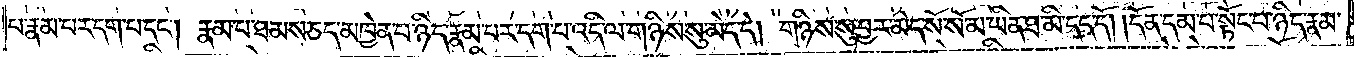པ་རྣམ་པར་དག་པ་དང༌། རྣམ་པ་ཐམས་ཅད་མཁྱེན་པ་ཉིད་རྣམ་པར་དག་པ་འདི་ལ་གཉིས་སུ་མེད་དེ། གཉིས་སུ་བྱར་མེད་སོ་སོ་མ་ཡིན་ཐ་མི་དད་དོ། །དོན་དམ་པ་སྟོང་པ་ཉིད་རྣམ་
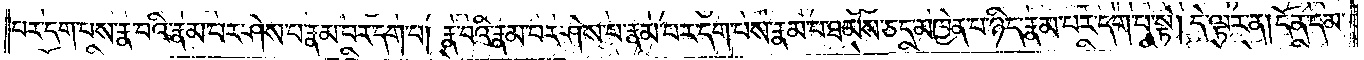པར་དག་པས་རྣ་བའི་རྣམ་པར་ཤེས་པ་རྣམ་པར་དག་པ། རྣ་བའི་རྣམ་པར་ཤེས་པ་རྣམ་པར་དག་པས་རྣམ་པ་ཐམས་ཅད་མཁྱེན་པ་ཉིད་རྣམ་པར་དག་པ་སྟེ། དེ་ལྟར་ན། དོན་དམ་
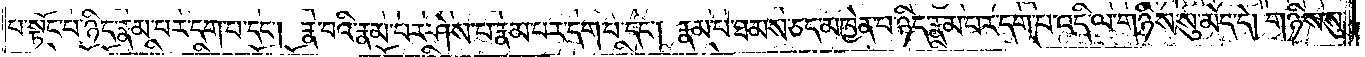པ་སྟོང་པ་ཉིད་རྣམ་པར་དག་པ་དང༌། རྣ་བའི་རྣམ་པར་ཤེས་པ་རྣམ་པར་དག་པ་དང༌། རྣམ་པ་ཐམས་ཅད་མཁྱེན་པ་ཉིད་རྣམ་པར་དག་པ་འདི་ལ་གཉིས་སུ་མེད་དེ། གཉིས་སུ་
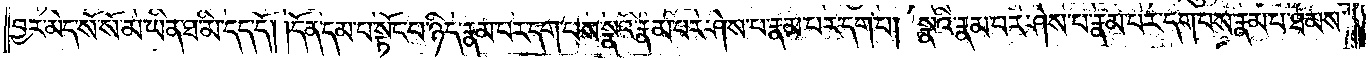བྱར་མེད་སོ་སོ་མ་ཡིན་ཐ་མི་དད་དོ། །དོན་དམ་པ་སྟོང་པ་ཉིད་རྣམ་པར་དག་པས་སྣའི་རྣམ་པར་ཤེས་པ་རྣམ་པར་དག་པ། སྣའི་རྣམ་པར་ཤེས་པ་རྣམ་པར་དག་པས་རྣམ་པ་ཐམས་
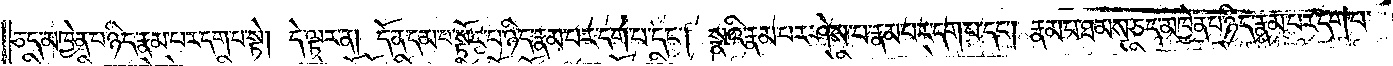ཅད་མཁྱེན་པ་ཉིད་རྣམ་པར་དག་པ་སྟེ། དེ་ལྟར་ན། དོན་དམ་པ་སྟོང་པ་ཉིད་རྣམ་པར་དག་པ་དང༌། སྣའི་རྣམ་པར་ཤེས་པ་རྣམ་པར་དག་པ་དང༌། རྣམ་པ་ཐམས་ཅད་མཁྱེན་པ་ཉིད་རྣམ་པར་དག་པ་
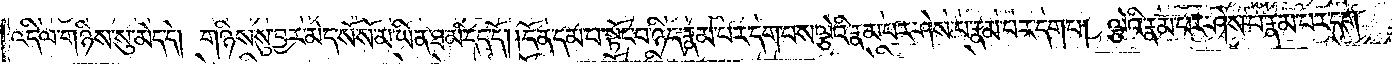འདི་ལ་གཉིས་སུ་མེད་དེ། གཉིས་སུ་བྱར་མེད་སོ་སོ་མ་ཡིན་ཐ་མི་དད་དོ། །དོན་དམ་པ་སྟོང་པ་ཉིད་རྣམ་པར་དག་པས་ལྕེའི་རྣམ་པར་ཤེས་པ་རྣམ་པར་དག་པ། ལྕེའི་རྣམ་པར་ཤེས་པ་རྣམ་པར་དག་
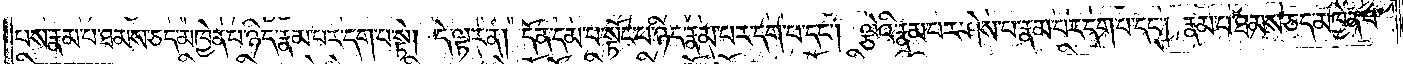པས་རྣམ་པ་ཐམས་ཅད་མཁྱེན་པ་ཉིད་རྣམ་པར་དག་པ་སྟེ། དེ་ལྟར་ན། དོན་དམ་པ་སྟོང་པ་ཉིད་རྣམ་པར་དག་པ་དང༌། ལྕེའི་རྣམ་པར་ཤེས་པ་རྣམ་པར་དག་པ་དང༌། རྣམ་པ་ཐམས་ཅད་མཁྱེན་པ་
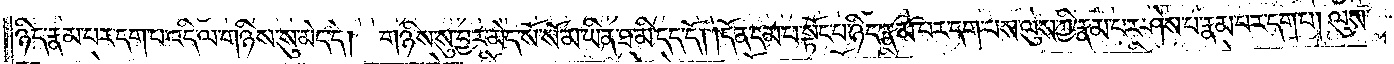ཉིད་རྣམ་པར་དག་པ་འདི་ལ་གཉིས་སུ་མེད་དེ། གཉིས་སུ་བྱར་མེད་སོ་སོ་མ་ཡིན་ཐ་མི་དད་དོ། །དོན་དམ་པ་སྟོང་པ་ཉིད་རྣམ་པར་དག་པས་ལུས་ཀྱི་རྣམ་པར་ཤེས་པ་རྣམ་པར་དག་པ། ལུས་ཀྱི་
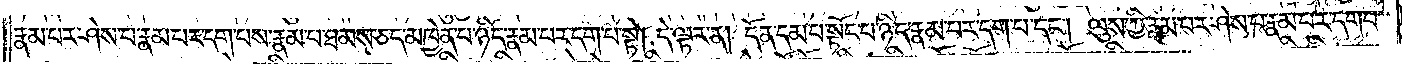རྣམ་པར་ཤེས་པ་རྣམ་པར་དག་པས་རྣམ་པ་ཐམས་ཅད་མཁྱེན་པ་ཉིད་རྣམ་པར་དག་པ་སྟེ། དེ་ལྟར་ན། དོན་དམ་པ་སྟོང་པ་ཉིད་རྣམ་པར་དག་པ་དང༌། ལུས་ཀྱི་རྣམ་པར་ཤེས་པ་རྣམ་པར་དག་པ་
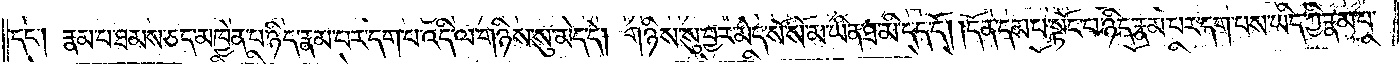དང༌། རྣམ་པ་ཐམས་ཅད་མཁྱེན་པ་ཉིད་རྣམ་པར་དག་པ་འདི་ལ་གཉིས་སུ་མེད་དེ། གཉིས་སུ་བྱར་མེད་སོ་སོ་མ་ཡིན་ཐ་མི་དད་དོ། །དོན་དམ་པ་སྟོང་པ་ཉིད་རྣམ་པར་དག་པས་ཡིད་ཀྱི་རྣམ་པར་
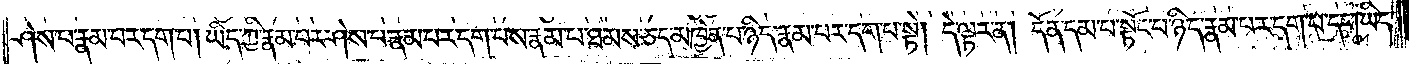ཤེས་པ་རྣམ་པར་དག་པ། ཡིད་ཀྱི་རྣམ་པར་ཤེས་པ་རྣམ་པར་དག་པས་རྣམ་པ་ཐམས་ཅད་མཁྱེན་པ་ཉིད་རྣམ་པར་དག་པ་སྟེ། དེ་ལྟར་ན། དོན་དམ་པ་སྟོང་པ་ཉིད་རྣམ་པར་དག་པ་དང༌། ཡིད་
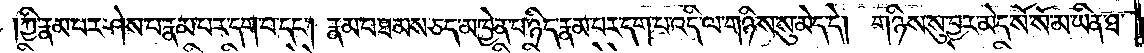ཀྱི་རྣམ་པར་ཤེས་པ་རྣམ་པར་དག་པ་དང༌། རྣམ་པ་ཐམས་ཅད་མཁྱེན་པ་ཉིད་རྣམ་པར་དག་པ་འདི་ལ་གཉིས་སུ་མེད་དེ། གཉིས་སུ་བྱར་མེད་སོ་སོ་མ་ཡིན་ཐ་
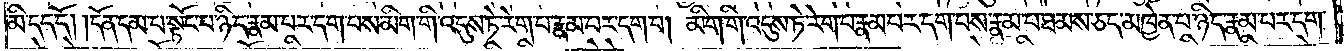མི་དད་དོ། །དོན་དམ་པ་སྟོང་པ་ཉིད་རྣམ་པར་དག་པས་མིག་གི་འདུས་ཏེ་རེག་པ་རྣམ་པར་དག་པ། མིག་གི་འདུས་ཏེ་རེག་པ་རྣམ་པར་དག་པས་རྣམ་པ་ཐམས་ཅད་མཁྱེན་པ་ཉིད་རྣམ་པར་དག་
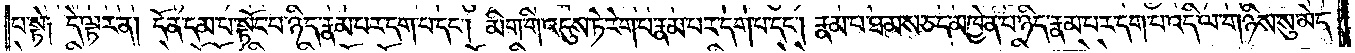པ་སྟེ༑ དེ་ལྟར་ན། དོན་དམ་པ་སྟོང་པ་ཉིད་རྣམ་པར་དག་པ་དང༌། མིག་གི་འདུས་ཏེ་རེག་པ་རྣམ་པར་དག་པ་དང༌། རྣམ་པ་ཐམས་ཅད་མཁྱེན་པ་ཉིད་རྣམ་པར་དག་པ་འདི་ལ་གཉིས་སུ་མེད་
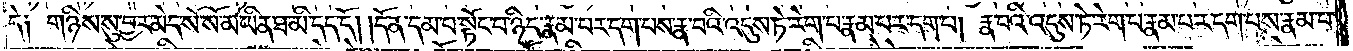དེ༑ གཉིས་སུ་བྱར་མེད་སོ་སོ་མ་ཡིན་ཐ་མི་དད་དོ། །དོན་དམ་པ་སྟོང་པ་ཉིད་རྣམ་པར་དག་པས་རྣ་བའི་འདུས་ཏེ་རེག་པ་རྣམ་པར་དག་པ། རྣ་བའི་འདུས་ཏེ་རེག་པ་རྣམ་པར་དག་པས་རྣམ་པ་
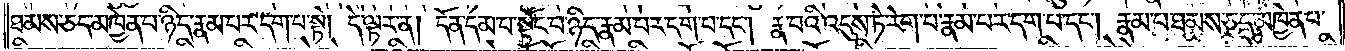ཐམས་ཅད་མཁྱེན་པ་ཉིད་རྣམ་པར་དག་པ་སྟེ། དེ་ལྟར་ན། དོན་དམ་པ་སྟོང་པ་ཉིད་རྣམ་པར་དག་པ་དང༌། རྣ་བའི་འདུས་ཏེ་རེག་པ་རྣམ་པར་དག་པ་དང༌། རྣམ་པ་ཐམས་ཅད་མཁྱེན་པ་
